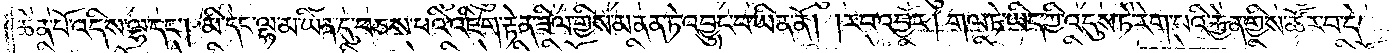ཆེན་པོ་འདིས་ལྷ་དང༌། མི་དང་ལྷ་མ་ཡིན་དུ་བཅས་པའི་འཇིག་རྟེན་ཟིལ་གྱིས་མནན་ཏེ་འབྱུང་བ་ཡིན་ནོ། །རབ་འབྱོར། གལ་ཏེ་ཡིད་ཀྱི་འདུས་ཏེ་རེག་པའི་རྐྱེན་གྱིས་ཚོར་བ་དེ་
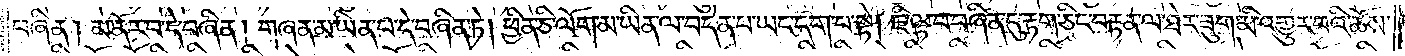བཞིན། མ་ནོར་བ་དེ་བཞིན། གཞན་མ་ཡིན་པ་དེ་བཞིན་ཏེ། ཕྱིན་ཅི་ལོག་མ་ཡིན་ལ་བདེན་པ་ཡང་དག་པ་སྟེ། ཇི་ལྟ་བ་བཞིན་དུ་རྟག་ཅིང་བརྟན་ལ་ཐེར་ཟུག་མི་འགྱུར་བའི་ཆོས་
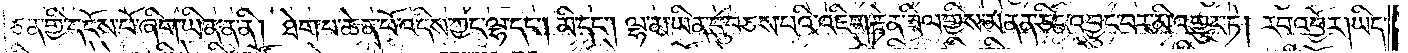ཅན་གྱི་དངོས་པོ་ཞིག་ཡིན་ན་ནི། ཐེག་པ་ཆེན་པོ་འདིས་ཀྱང་ལྷ་དང༌། མི་དང༌། ལྷ་མ་ཡིན་དུ་བཅས་པའི་འཇིག་རྟེན་ཟིལ་གྱིས་མནན་ཅིང་འབྱུང་པར་མི་འགྱུར་ཏེ། རབ་འབྱོར། ཡིད་
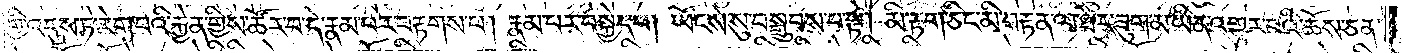གྱི་འདུས་ཏེ་རེག་པའི་རྐྱེན་གྱིས་ཚོར་བ་དེ་རྣམ་པར་བརྟགས་པ། རྣམ་པར་བསྐྱེད་པ། ཡོངས་སུ་བསྒྲུབས་པ་སྟེ། མི་རྟག་ཅིང་མི་བརྟན་ལ་ཐེར་ཟུག་མ་ཡིན་འགྱུར་བའི་ཆོས་ཅན་
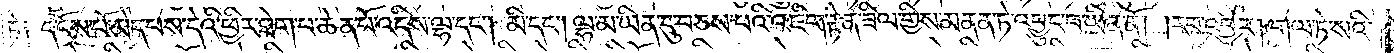ཏེ། །དངོས་པོ་མེད་པས་དེའི་ཕྱིར་ཐེག་པ་ཆེན་པོ་འདིས་ལྷ་དང༌། མི་དང༌། ལྷ་མ་ཡིན་དུ་བཅས་པའི་འཇིག་རྟེན་ཟིལ་གྱིས་མནན་ཏེ་འབྱུང་བ་ཡིན་ནོ། །རབ་འབྱོར། གལ་ཏེ་སའི་
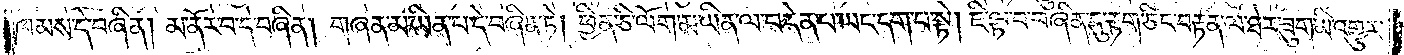ཁམས་དེ་བཞིན། མ་ནོར་བ་དེ་བཞིན། གཞན་མ་ཡིན་པ་དེ་བཞིན་ཏེ། ཕྱིན་ཅི་ལོག་མ་ཡིན་ལ་བདེན་པ་ཡང་དག་པ་སྟེ། ཇི་ལྟ་བ་བཞིན་དུ་རྟག་ཅིང་བརྟན་ལ་ཐེར་ཟུག་མི་འགྱུར་
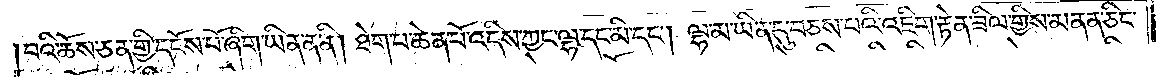བའི་ཆོས་ཅན་གྱི་དངོས་པོ་ཞིག་ཡིན་ན་ནི། ཐེག་པ་ཆེན་པོ་འདིས་ཀྱང་ལྷ་དང་མི་དང༌། ལྷ་མ་ཡིན་དུ་བཅས་པའི་འཇིག་རྟེན་ཟིལ་གྱིས་མནན་ཅིང་
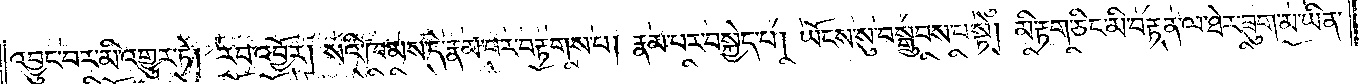འབྱུང་བར་མི་འགྱུར་ཏེ། རབ་འབྱོར། སའི་ཁམས་དེ་རྣམ་པར་བརྟགས་པ། རྣམ་པར་བསྐྱེད་པ། ཡོངས་སུ་བསྒྲུབས་པ་སྟེ། མི་རྟག་ཅིང་མི་བརྟན་ལ་ཐེར་ཟུག་མ་ཡིན་
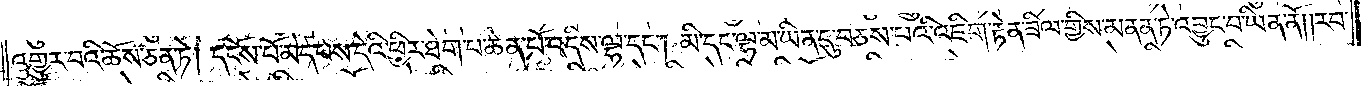འགྱུར་བའི་ཆོས་ཅན་ཏེ། དངོས་པོ་མེད་པས་དེའི་ཕྱིར་ཐེག་པ་ཆེན་པོ་འདིས་ལྷ་དང༌། མི་དང་ལྷ་མ་ཡིན་དུ་བཅས་པའི་འཇིག་རྟེན་ཟིལ་གྱིས་མནན་ཏེ་འབྱུང་བ་ཡིན་ནོ། །རབ་
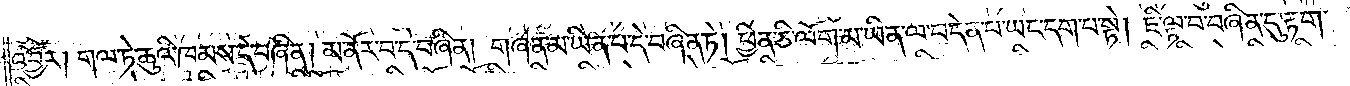འབྱོར། གལ་ཏེ་ཆུའི་ཁམས་དེ་བཞིན། མ་ནོར་བ་དེ་བཞིན། གཞན་མ་ཡིན་པ་དེ་བཞིན་ཏེ། ཕྱིན་ཅི་ལོག་མ་ཡིན་ལ་བདེན་པ་ཡང་དག་པ་སྟེ། ཇི་ལྟ་བ་བཞིན་དུ་རྟག་
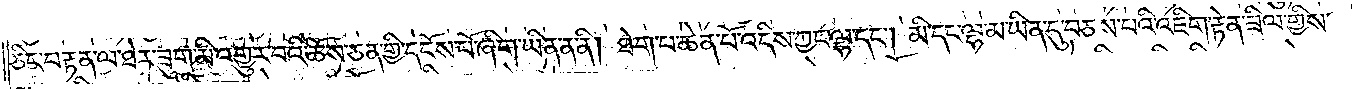ཅིང་བརྟན་ལ་ཐེར་ཟུག་མི་འགྱུར་བའི་ཆོས་ཅན་གྱི་དངོས་པོ་ཞིག་ཡིན་ན་ནི། ཐེག་པ་ཆེན་པོ་འདིས་ཀྱང་ལྷ་དང༌། མི་དང་ལྷ་མ་ཡིན་དུ་བཅས་པའི་འཇིག་རྟེན་ཟིལ་གྱིས་
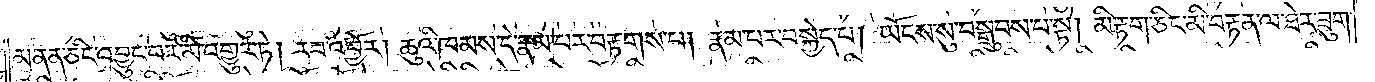མནན་ཅིང་འབྱུང་བར་མི་འགྱུར་ཏེ། རབ་འབྱོར། ཆུའི་ཁམས་དེ་རྣམ་པར་བརྟགས་པ། རྣམ་པར་བསྐྱེད་པ། ཡོངས་སུ་བསྒྲུབས་པ་སྟེ། མི་རྟག་ཅིང་མི་བརྟན་ལ་ཐེར་ཟུག་
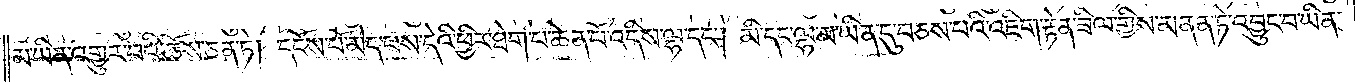མ་ཡིན་འགྱུར་བའི་ཆོས་ཅན་ཏེ། དངོས་པོ་མེད་པས་དེའི་ཕྱིར་ཐེག་པ་ཆེན་པོ་འདིས་ལྷ་དང༌། མི་དང་ལྷ་མ་ཡིན་དུ་བཅས་པའི་འཇིག་རྟེན་ཟིལ་གྱིས་མནན་ཏེ་འབྱུང་བ་ཡིན་
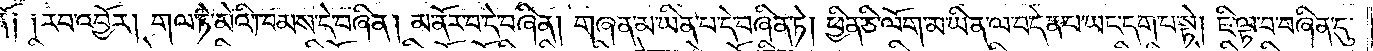ནོ། །རབ་འབྱོར། གལ་ཏེ་མེའི་ཁམས་དེ་བཞིན། མ་ནོར་བ་དེ་བཞིན། གཞན་མ་ཡིན་པ་དེ་བཞིན་ཏེ། ཕྱིན་ཅི་ལོག་མ་ཡིན་ལ་བདེན་པ་ཡང་དག་པ་སྟེ། ཇི་ལྟ་བ་བཞིན་དུ་
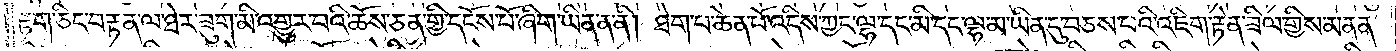རྟག་ཅིང་བརྟན་ལ་ཐེར་ཟུག་མི་འགྱུར་བའི་ཆོས་ཅན་གྱི་དངོས་པོ་ཞིག་ཡིན་ན་ནི། ཐེག་པ་ཆེན་པོ་འདིས་ཀྱང་ལྷ་དང་མི་དང་ལྷ་མ་ཡིན་དུ་བཅས་པའི་འཇིག་རྟེན་ཟིལ་གྱིས་མནན་
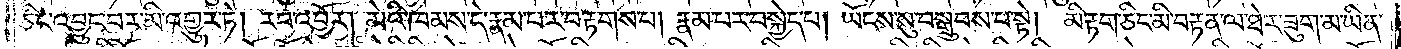ཅིང་འབྱུང་བར་མི་འགྱུར་ཏེ། རབ་འབྱོར། མེའི་ཁམས་དེ་རྣམ་པར་བརྟགས་པ། རྣམ་པར་བསྐྱེད་པ། ཡོངས་སུ་བསྒྲུབས་པ་སྟེ། མི་རྟག་ཅིང་མི་བརྟན་ལ་ཐེར་ཟུག་མ་ཡིན་
